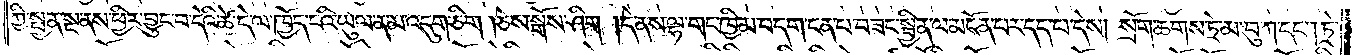ཀྱི་སྤྱན་སྔ་ནས་ཕྱིར་བྱུང་བ་དེའི་ཚེ་དེ་ལ་ཁྱོད་ངའི་ཡུལ་ནམ་འདུག་ཅིག །ཅེས་སྒོས་ཤིག །དེ་ནས་ལྷ་གང་ཁྱིམ་བདག་ངན་པ་བཟང་སྦྱིན་ལ་མངོན་པར་དད་པ་དེས། སྲོག་ཆགས་ཏྲེ་མ་བུ་ཀ་དང༌། ཏྲེ་
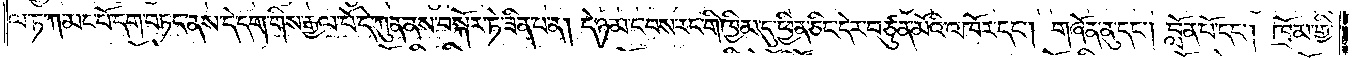ལ་ཏ་ཀ་མང་པོ་དག་བཏང་ནས་དེ་དག་གིས་རྒྱལ་པོ་དེ་ཀུན་ནས་བསྐོར་ཏེ་ཟིན་པ་ན། དེ་ཉམ་ང་བས་རང་གི་ཁྱིམ་དུ་ཕྱིན་ཅིང་དེར་བཙུན་མོའི་འཁོར་དང༌། གཞོན་ནུ་དང༌། བློན་པོ་དང༌། ཁྲོམ་གྱི་
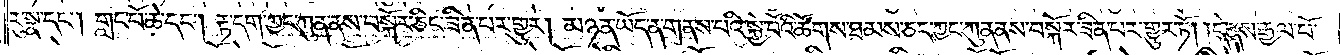རུ་སྣ་དང༌། གླང་པོ་ཆེ་དང༌། རྟ་དག་ཀྱང་ཀུན་ནས་བསྐོར་ཅིང་ཟིན་པར་གྱུར། མཉན་ཡོད་ན་གནས་པའི་སྐྱེ་བོའི་ཚོགས་ཐམས་ཅད་ཀྱང་ཀུན་ནས་བསྐོར་ཟིན་པར་གྱུར་ཏོ། །དེ་ནས་རྒྱལ་པོ་
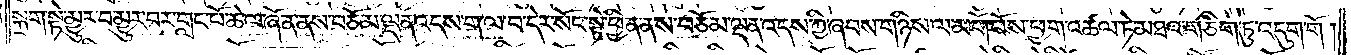སྐྲག་སྟེ་མྱུར་བ་མྱུར་བར་གླང་པོ་ཆེ་ལ་ཞོན་ནས་བཅོམ་ལྡན་འདས་ག་ལ་བ་དེར་སོང་སྟེ་ཕྱིན་ནས་བཅོམ་ལྡན་འདས་ཀྱི་ཞབས་གཉིས་ལ་མགོ་བོས་ཕྱག་འཚལ་ཏེ་མཐའ་གཅིག་ཏུ་འདུག་གོ །
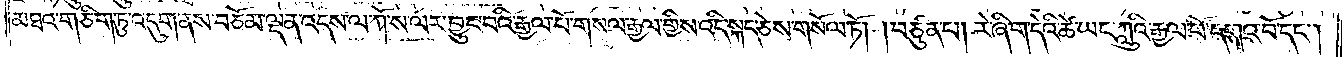མཐའ་གཅིག་ཏུ་འདུག་ནས་བཅོམ་ལྡན་འདས་ལ་ཀོ་ས་ལར་བྱུང་བའི་རྒྱལ་པོ་གསལ་རྒྱལ་གྱིས་འདི་སྐད་ཅེས་གསོལ་ཏོ། །བཙུན་པ། རེ་ཞིག་དེའི་ཚེ་ཡང་ཀླུའི་རྒྱལ་པོ་དགའ་བོ་དང༌།
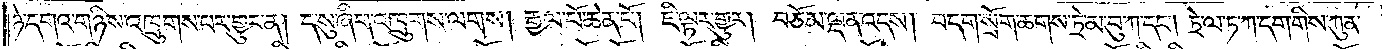ཉེ་དགའ་གཉིས་འཁྲུགས་པར་གྱུར་ན། ད་སུ་ཞིག་འཁྲུགས་ལགས། རྒྱལ་པོ་ཆེན་པོ། ཇི་ལྟར་གྱུར། བཅོམ་ལྡན་འདས། བདག་སྲོག་ཆགས་ཏྲ་མ་བུ་ཀ་དང༌། ཏྲེ་ལ་ཏ་ཀ་དག་གིས་ཀུན་
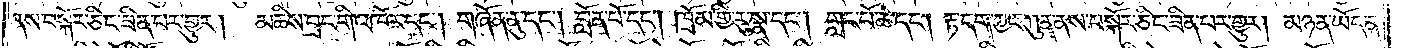ནས་བསྐོར་ཅིང་ཟིན་པར་གྱུར། མཆིས་བྲང་གི་འཁོར་དང༌། གཞོན་ནུ་དང༌། བློན་པོ་དང༌། ཁྲོམ་གྱི་རུ་སྣ་དང༌། གླང་པོ་ཆེ་དང༌། རྟ་དག་ཀྱང་ཀུན་ནས་བསྐོར་ཅིང་ཟིན་པར་གྱུར། མཉན་ཡོད་ན་
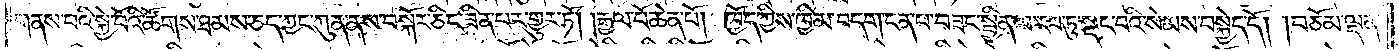གནས་པའི་སྐྱེ་བོའི་ཚོགས་ཐམས་ཅད་ཀྱང་ཀུན་ནས་བསྐོར་ཅིང་ཟིན་པར་གྱུར་ཏོ། །རྒྱལ་པོ་ཆེན་པོ། ཁྱོད་ཀྱིས་ཁྱིམ་བདག་ངན་པ་བཟང་སྦྱིན་ལ་རབ་ཏུ་སྡང་བའི་སེམས་བསྐྱེད་དོ། །བཅོམ་ལྡན་
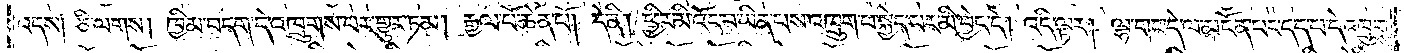འདས། ཅི་ལགས། ཁྱིམ་བདག་དེ་འཁྲུགས་པར་གྱུར་ཏམ། རྒྱལ་པོ་ཆེན་པོ། དེ་ནི། ཕྱིར་མི་འོང་བ་ཡིན་པས་འཁྲུག་པ་སྐྱེད་པར་མི་བྱེད་དེ། འདི་ལྟར། ལྷ་གང་དེ་ལ་མངོན་པར་དད་པ་དེ་འཁྲུགས་
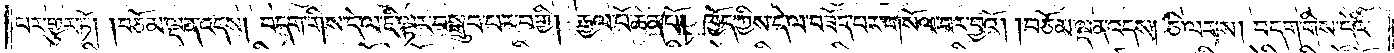པར་གྱུར་ཏོ། །བཅོམ་ལྡན་འདས། བདག་གིས་དེ་ལ་ཇི་ལྟར་བསྒྲུབ་པར་བགྱི། རྒྱལ་པོ་ཆེན་པོ། ཁྱོད་ཀྱིས་དེ་ལ་བཟོད་པར་གསོལ་བར་བྱའོ། །བཅོམ་ལྡན་འདས། ཅི་ལགས། བདག་གིས་དེའི་
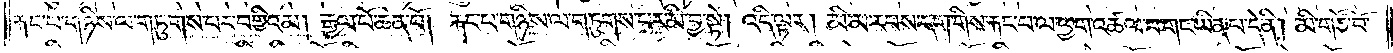རྐང་པ་གཉིས་ལ་གཏུགས་པར་བགྱིའམ། རྒྱལ་པོ་ཆེན་པོ། རྐང་པ་གཉིས་ལ་གཏུགས་པར་མི་བྱ་སྟེ། འདི་ལྟར། མི་མ་རབས་དག་གིས་རྐང་པ་ལ་ཕྱག་འཚལ་བ་གང་ཡིན་པ་དེ་ནི། མི་གཙོ་བོ་
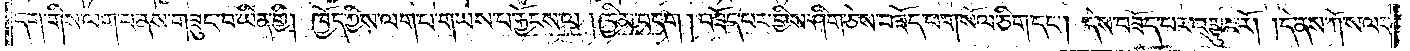དག་གིས་ལག་པ་ནས་གཟུང་བ་ཡིན་གྱི། ཁྱོད་ཀྱིས་ལག་པ་གཡས་པ་རྐྱོངས་ལ། ཁྱིམ་བདག །བཟོད་པར་གྱིས་ཤིག་ཅེས་བཟོད་པ་གསོལ་ཅིག་དང༌། དེས་བཟོད་པར་འགྱུར་རོ། །དེ་ནས་ཀོ་ས་ལར་
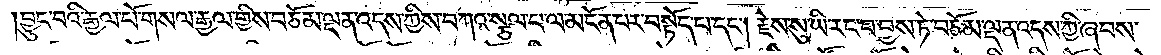བྱུང་བའི་རྒྱལ་པོ་གསལ་རྒྱལ་གྱིས་བཅོམ་ལྡན་འདས་ཀྱིས་བཀའ་སྩལ་པ་ལ་མངོན་པར་བསྟོད་པ་དང༌། རྗེས་སུ་ཡི་རང་བ་བྱས་ཏེ་བཅོམ་ལྡན་འདས་ཀྱི་ཞབས་
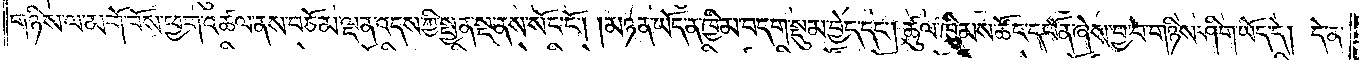གཉིས་ལ་མགོ་བོས་ཕྱག་འཚལ་ནས་བཅོམ་ལྡན་འདས་ཀྱི་སྤྱན་སྔ་ནས་སོང་ངོ༌། །མཉན་ཡོད་ན་ཁྱིམ་བདག་སྡུམ་བྱེད་དང༌། ཚུལ་ཁྲིམས་ཚོང་དཔོན་ཞེས་བྱ་བ་གཉིས་ཤིག་ཡོད་དེ། དེ་ན་
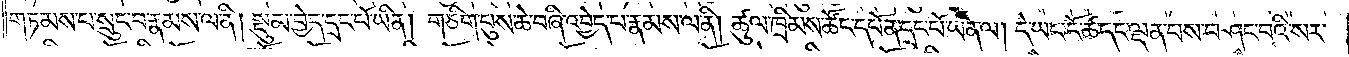གཏམས་པ་སྲུང་བ་རྣམས་ལ་ནི། སྡུམ་བྱེད་དྲང་པོ་ཡིན། གཅིག་པུས་ཆེ་བཞི་འབྱེད་པ་རྣམས་ལ་ནི། ཚུལ་ཁྲིམས་ཚོང་དཔོན་དྲང་པོ་ཡིན་ལ། དེ་ཡང་ངོ་ཚ་དང་ལྡན་པས་བཤང་བའི་སར་
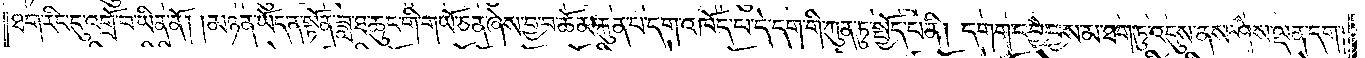ཐག་རིང་དུ་འགྲོ་བ་ཡིན་ནོ། །མཉན་ཡོད་ན་སྟོན་ཟླ་ཐ་ཆུང་གི་གཡོ་ཅན་ཞེས་བྱ་བ་ཆོམ་རྐུན་པ་དག་འཁོད་པ་དེ་དག་གི་ཀུན་ཏུ་སྤྱོད་པ་ནི། དགག་དབྱེ་བྱས་མ་ཐག་ཏུ་འདུས་ནས་ཤེས་ལྡན་དག།
